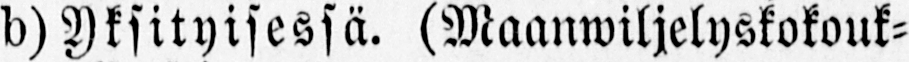d) Yksityisessä. (Maanwiljelyskokouk-
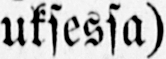uksessa)
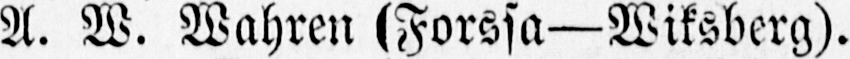A. W. Wahren (Forssa —Wiksberg).
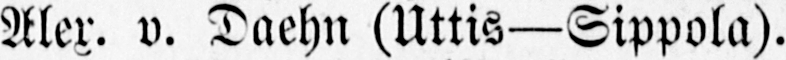Alex. v. Daehn (Uttis —Sippola).
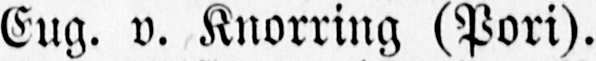Eug. v. Knorring (Pori).
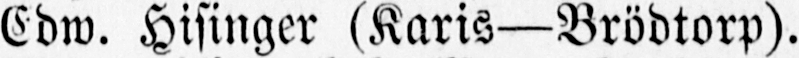Edw. Hisinger (Karis —Brödtorp).
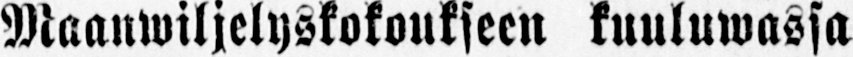Maanwiljelyskokoukseen kuuluwassa
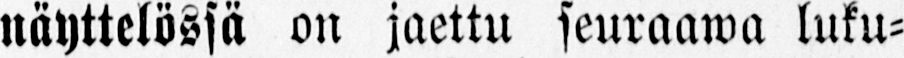näyttelössä on jaettu seuraawa luku-
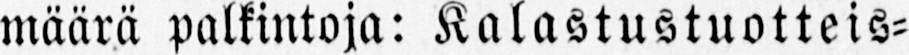määrä palkintoja: Kalastustuotteis-
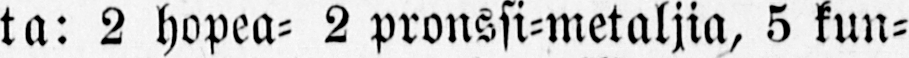ta: 2 hopea- 2 pronssi-metaljia, 5 kun-
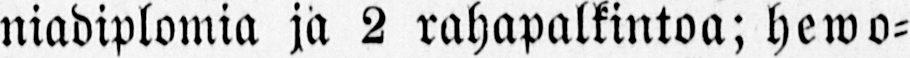niadiplomia ja 2 rahapalkintoa; Hewo-
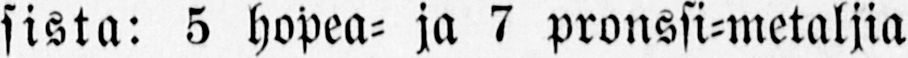sista: 5 hopea- ja 7 pronssi-metaljia
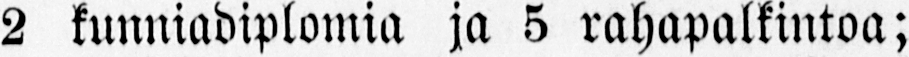2 kunniadiplomia ja 5 rahapalkintoa;
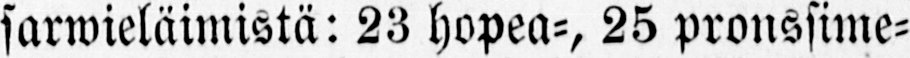sarwieläimistä: 23 hopea-, 25 pronssime-
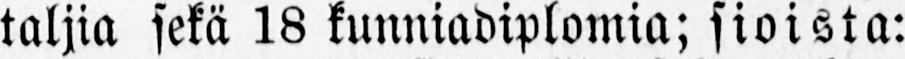taljia sekä 18 kunuiadiplomia; sioista:
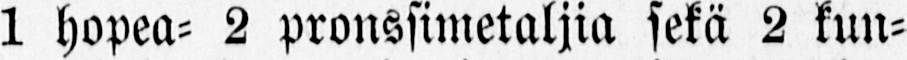1 hopea- 2 pronssimetaljia sekä 2 kun-
